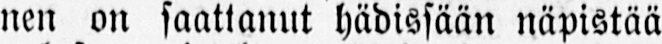nen on saattanut hädissään näpistää
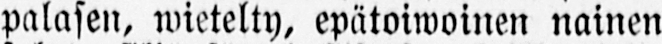palasen, wietelty, epätoiwoinen nainen
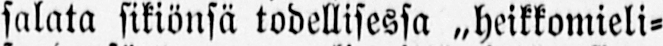salata sikiönsä todellisessa ˶heikkomieli-
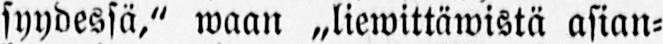syydessä," waan ˶liewittäwistä asian-
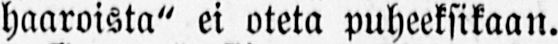haaroista" ei oteta puheeksikaan.
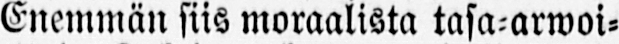Enemmän siis moraalista tasaarwoi-
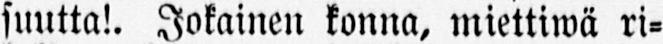suutta!. Jokainen konna, miettiwä ri-
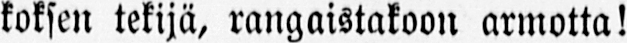koksen tekijä, rangaistakoon armotta!
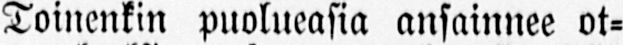Toinenkin puolueasia ansainnee ot-
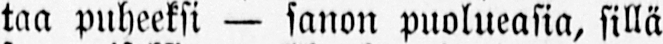taa puheeksi — sanon puolueasia, sillä
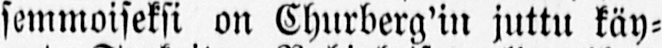semmoiseksi on Churberg'in juttu käy-
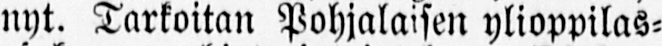nyt. Tarkoitan Pohjalaisen ylioppilas-
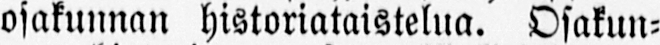osakunnat, historiataistelua. Osakun-
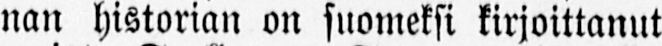nan historian on suomeksi kirjoittanut
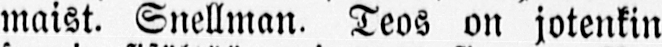maist. Snellman. Teos on jotenkin
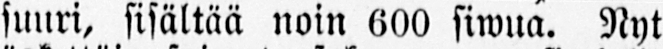suuri, sisältää noin 600 siwua. Nyt
